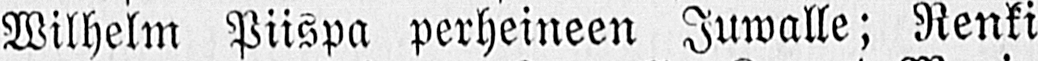Wilhelm Piispa perheineen Juwalle; Renki
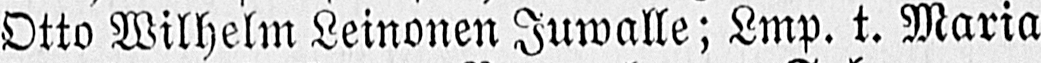Otto Wilhelm Leinonen Juwalle; Lmp. t. Maria
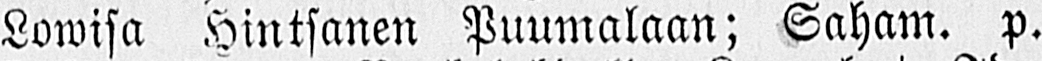Lowisa Hintsanen Puumalaan; Saham. p.
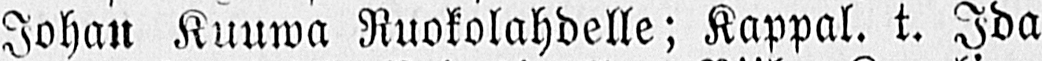Johan Kuuwa Ruokolahdelle; Kappal. t. Ida
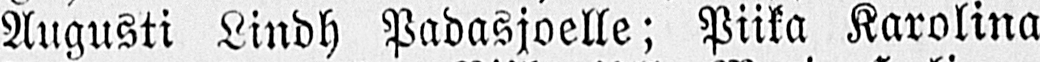Augusti Lindh Padasjoelle; Piika Karolina
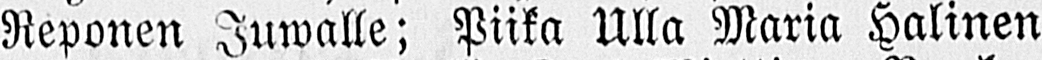Reponen Juwalle; Piika Ulla Maria Halinen
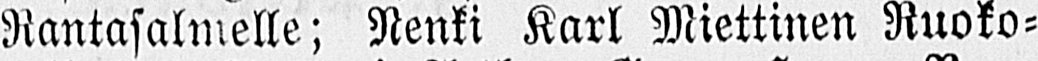Rantasalmelle; Nenki Karl Miettinen Ruoko-
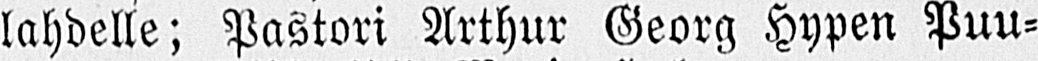lahdelle; Pastori Arthur Georg Hypen Puu-
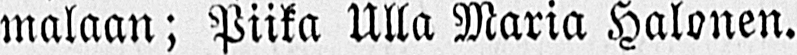malaan; Piika Ulla Maria Halonen.
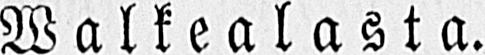Walkealasta.
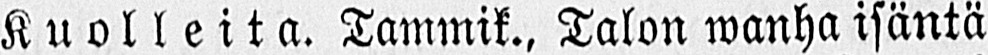Kuolleita. Tammik., Talon wanha isäntä
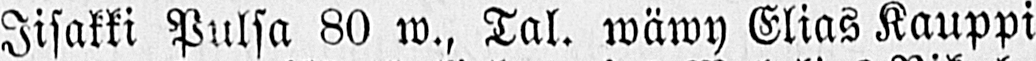Iisakki Pulsa 80 w., Tal. wäwy Elias Kauppi
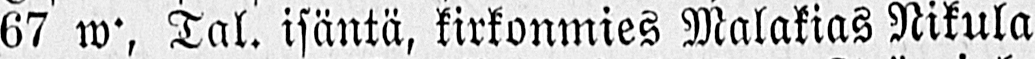67 w., Tal. isäntä, kirkonmies Malakias Nikula
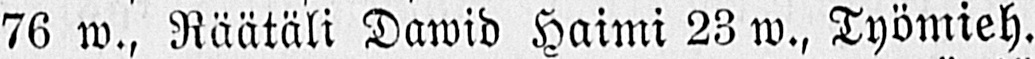76 w., Räätäli Dawid Haimi 23 w., Työmieh.
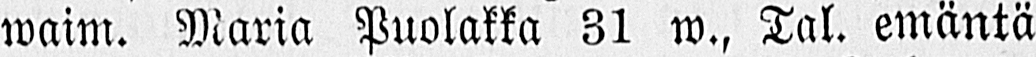waim. Maria Puolakka 31 w., Tal. emäntä
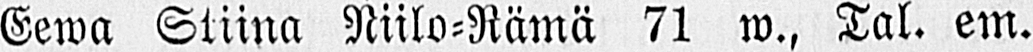Eewa Stiina Niilo-Rämä 71 w., Tal. em.
